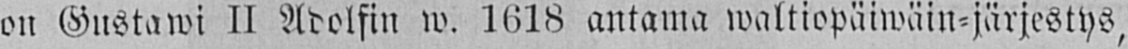on Gustawi II Adolfin w. 1618 antama waltiopäiwäin-järjestys,
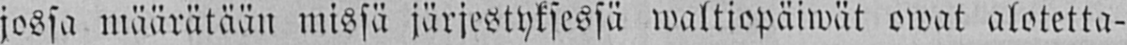jossa määrätään missä järjestyksessä waltiopäiwät owat alotetta-
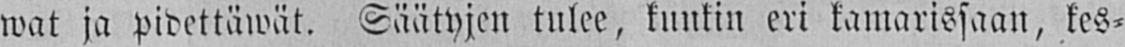wat ja pidettäwät. Säätyjen tulee, kunkin eri kamarissaan, kes-
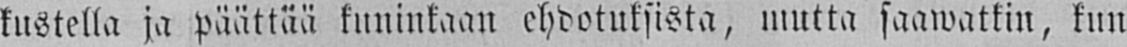kustella ja päättää kuninkaan ehdotuksista, mutta saawatkin, kun
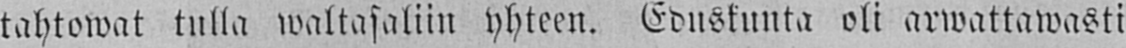tahtowat tulla waltasaliin yhteen. Eduskunta oli arwattawasti
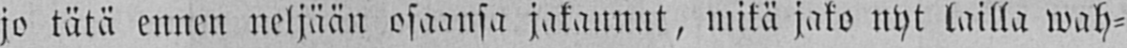jo tätä ennen neljään osaansa jakaunut, mitä jako nyt lailla wah-
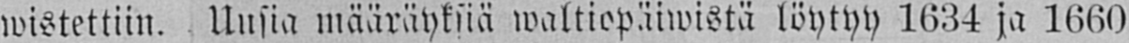wistettiin. Uusia määräyksiä waltiopäiwistä löytyy 1634 ja 1660
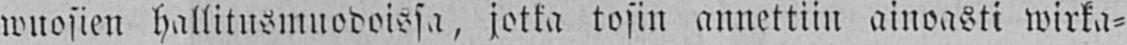wuosien hallitusmuodoissa, jotka tosin annettiin ainoasti wirka-
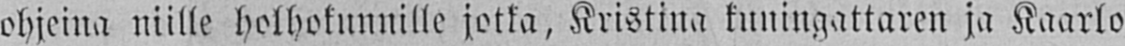ohjeina niille holhokunnille jotka, Kristina kuningattaren ja Kaarlo
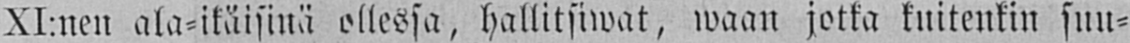XI:nen ala-ikäisinä ollessa, hallitsiwat, waan jotka kuitenkin suu-
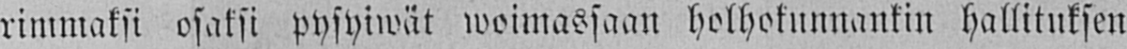rimmaksi osaksi pysyiwät woimassaan holhokunnankin hallituksen
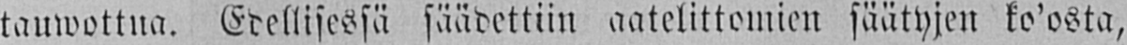tauwottua. Edellisessä säädettiin aatelittomien säätyjen ko'osta,
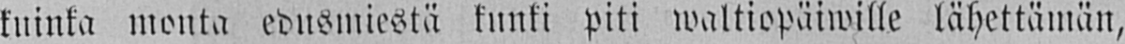kuinka monta edusmiestä tunki piti waltiopäiwille lähettämän,
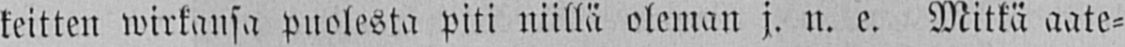teitten wirkansa puolesta piti niillä oleman j. n. e. Mitkä aate-
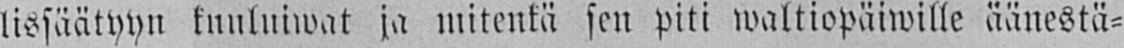lissäätyyn kuuluiwat ja mitenkä sen piti waltiopäiwille äänestä-
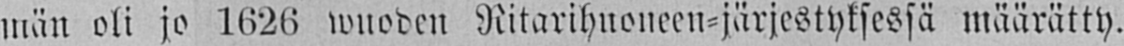män oli jo 1626 wuoden Ritarihuoneen-järjestyksessä määrätty.
